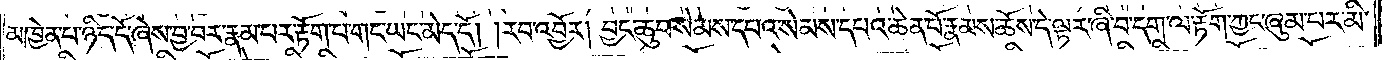མཁྱེན་པ་ཉིད་དོ་ཞེས་བྱ་བར་རྣམ་པར་རྟོག་པ་གང་ཡང་མེད་དོ། །རབ་འབྱོར། བྱང་ཆུབ་སེམས་དཔའ་སེམས་དཔའ་ཆེན་པོ་རྣམས་ཆོས་དེ་ལྟར་ཞི་བ་དག་ལ་རྟོག་ཀྱང་ཞུམ་པར་མི་
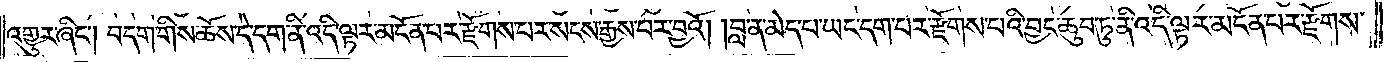འགྱུར་ཞིང༌། བདག་གིས་ཆོས་དེ་དག་ནི་འདི་ལྟར་མངོན་པར་རྫོགས་པར་སངས་རྒྱས་པར་བྱའོ། །བླ་ན་མེད་པ་ཡང་དག་པར་རྫོགས་པའི་བྱང་ཆུབ་ཏུ་ནི་འདི་ལྟར་མངོན་པར་རྫོགས་
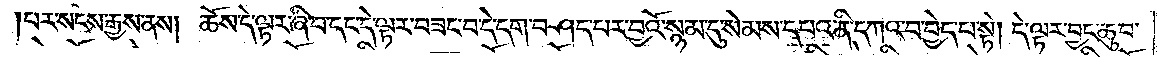པར་སངས་རྒྱས་ནས། ཆོས་དེ་ལྟར་ཞི་བ་དང་དེ་ལྟར་བཟང་བ་དེ་དག་བཤད་པར་བྱའོ་སྙམ་དུ་སེམས་དཔའ་ནི་དཀའ་བ་བྱེད་པ་སྟེ། དེ་ལྟར་བྱང་ཆུབ་
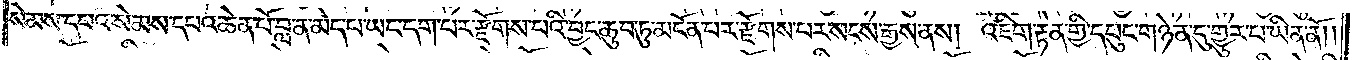སེམས་དཔའ་སེམས་དཔའ་ཆེན་པོ་བླ་ན་མེད་པ་ཡང་དག་པར་རྫོགས་པའི་བྱང་ཆུབ་ཏུ་མངོན་པར་རྫོགས་པར་སངས་རྒྱས་ནས། འཇིག་རྟེན་གྱི་དཔུང་གཉེན་དུ་གྱུར་པ་ཡིན་ནོ༎
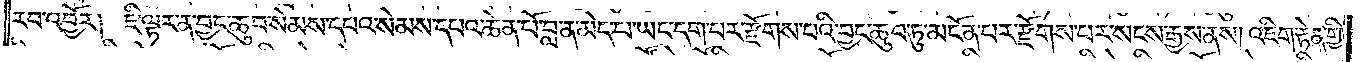རབ་འབྱོར། ཇི་ལྟར་ན་བྱང་ཆུབ་སེམས་དཔའ་སེམས་དཔའ་ཆེན་པོ་བླ་ན་མེད་པ་ཡང་དག་པར་རྫོགས་པའི་བྱང་ཆུབ་ཏུ་མངོན་པར་རྫོགས་པར་སངས་རྒྱས་ནས། འཇིག་རྟེན་གྱི་
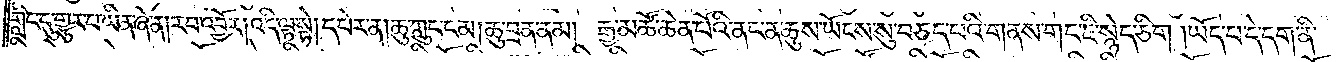གླིང་དུ་གྱུར་པ་ཡིན་ཞེ་ན། རབ་འབྱོར། འདི་ལྟ་སྟེ། དཔེར་ན། ཆུ་ཀླུང་ངམ། ཆུ་བྲན་ནམ། རྒྱ་མཚོ་ཆེན་པོའི་ནང་ན་ཆུས་ཡོངས་སུ་བཅད་པའི་གནས་གང་ཇི་སྙེད་ཅིག །ཡོད་པ་དེ་དག་ནི་
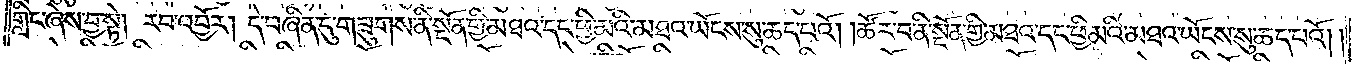གླིང་ཞེས་བྱ་སྟེ། རབ་འབྱོར། དེ་བཞིན་དུ་གཟུགས་ནི་སྔོན་གྱི་མཐའ་དང་ཕྱི་མའི་མཐའ་ཡོངས་སུ་ཆད་པའོ། །ཚོར་བ་ནི་སྔོན་གྱི་མཐའ་དང་ཕྱི་མའི་མཐའ་ཡོངས་སུ་ཆད་པའོ། །
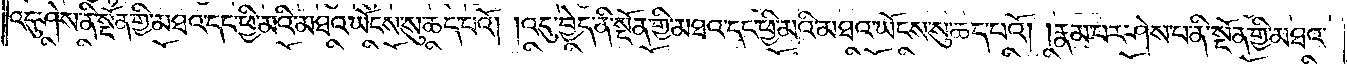འདུ་ཤེས་ནི་སྔོན་གྱི་མཐའ་དང་ཕྱི་མའི་མཐའ་ཡོངས་སུ་ཆད་པའོ། །འདུ་བྱེད་ནི་སྔོན་གྱི་མཐའ་དང་ཕྱི་མའི་མཐའ་ཡོངས་སུ་ཆད་པའོ། །རྣམ་པར་ཤེས་པ་ནི་སྔོན་གྱི་མཐའ་
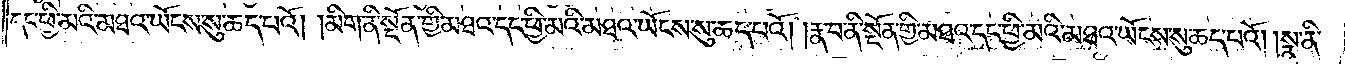དང་ཕྱི་མའི་མཐའ་ཡོངས་སུ་ཆད་པའོ། །མིག་ནི་སྔོན་གྱི་མཐའ་དང་ཕྱི་མའི་མཐའ་ཡོངས་སུ་ཆད་པའོ། །རྣ་བ་ནི་སྔོན་གྱི་མཐའ་དང་ཕྱི་མའི་མཐའ་ཡོངས་སུ་ཆད་པའོ། །སྣ་ནི་
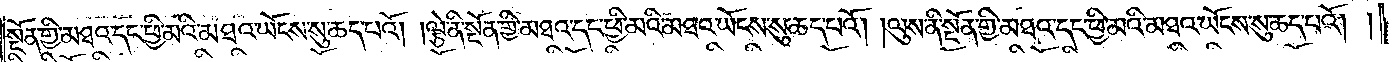སྔོན་གྱི་མཐའ་དང་ཕྱི་མའི་མཐའ་ཡོངས་སུ་ཆད་པའོ། །ལྕེ་ནི་སྔོན་གྱི་མཐའ་དང་ཕྱི་མའི་མཐའ་ཡོངས་སུ་ཆད་པའོ། །ལུས་ནི་སྔོན་གྱི་མཐའ་དང་ཕྱི་མའི་མཐའ་ཡོངས་སུ་ཆད་པའོ། །
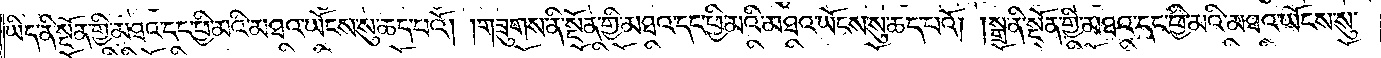ཡིད་ནི་སྔོན་གྱི་མཐའ་དང་ཕྱི་མའི་མཐའ་ཡོངས་སུ་ཆད་པའོ། །གཟུགས་ནི་སྔོན་གྱི་མཐའ་དང་ཕྱི་མའི་མཐའ་ཡོངས་སུ་ཆད་པའོ། །སྒྲ་ནི་སྔོན་གྱི་མཐའ་དང་ཕྱི་མའི་མཐའ་ཡོངས་སུ་
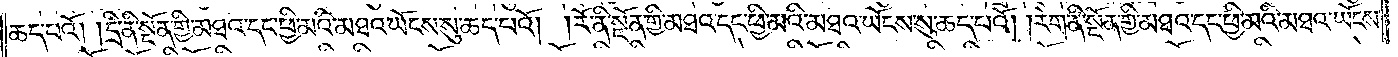ཆད་པའོ། །དྲི་ནི་སྔོན་གྱི་མཐའ་དང་ཕྱི་མའི་མཐའ་ཡོངས་སུ་ཆད་པའོ། །རོ་ནི་སྔོན་གྱི་མཐའ་དང་ཕྱི་མའི་མཐའ་ཡོངས་སུ་ཆད་པའོ། །རེག་ནི་སྔོན་གྱི་མཐའ་དང་ཕྱི་མའི་མཐའ་ཡོངས་
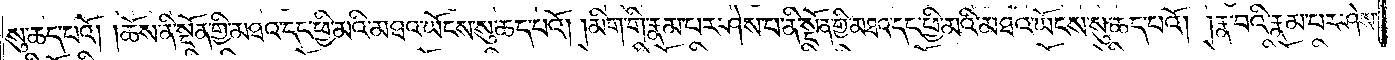སུ་ཆད་པའོ། །ཆོས་ནི་སྔོན་གྱི་མཐའ་དང་ཕྱི་མའི་མཐའ་ཡོངས་སུ་ཆད་པའོ། །མིག་གི་རྣམ་པར་ཤེས་པ་ནི་སྔོན་གྱི་མཐའ་དང་ཕྱི་མའི་མཐའ་ཡོངས་སུ་ཆད་པའོ། །རྣ་བའི་རྣམ་པར་ཤེས་
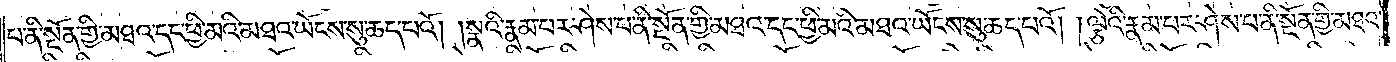པ་ནི་སྔོན་གྱི་མཐའ་དང་ཕྱི་མའི་མཐའ་ཡོངས་སུ་ཆད་པའོ། །སྣའི་རྣམ་པར་ཤེས་པ་ནི་སྔོན་གྱི་མཐའ་དང་ཕྱི་མའི་མཐའ་ཡོངས་སུ་ཆད་པའོ། །ལྕེའི་རྣམ་པར་ཤེས་པ་ནི་སྔོན་གྱི་མཐའ་
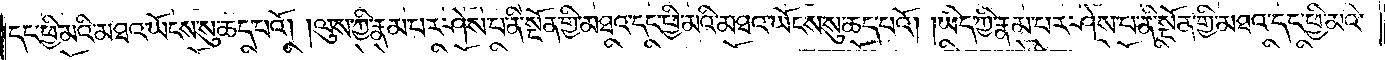དང་ཕྱི་མའི་མཐའ་ཡོངས་སུ་ཆད་པའོ། །ལུས་ཀྱི་རྣམ་པར་ཤེས་པ་ནི་སྔོན་གྱི་མཐའ་དང་ཕྱི་མའི་མཐའ་ཡོངས་སུ་ཆད་པའོ། །ཡིད་ཀྱི་རྣམ་པར་ཤེས་པ་ནི་སྔོན་གྱི་མཐའ་དང་ཕྱི་མའི་
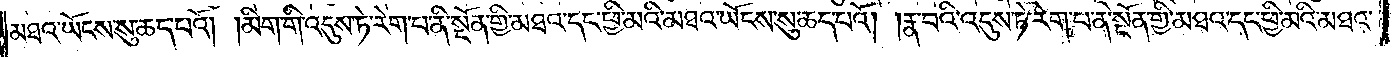མཐའ་ཡོངས་སུ་ཆད་པའོ། །མིག་གི་འདུས་ཏེ་རེག་པ་ནི་སྔོན་གྱི་མཐའ་དང་ཕྱི་མའི་མཐའ་ཡོངས་སུ་ཆད་པའོ། །རྣ་བའི་འདུས་ཏེ་རེག་པ་ནི་སྔོན་གྱི་མཐའ་དང་ཕྱི་མའི་མཐའ་
